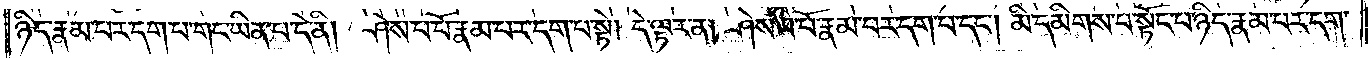ཉིད་རྣམ་པར་དག་པ་གང་ཡིན་པ་དེ་ནི། ཤེས་པ་པོ་རྣམ་པར་དག་པ་སྟེ། དེ་ལྟར་ན། ཤེས་པ་པོ་རྣམ་པར་དག་པ་དང༌། མི་དམིགས་པ་སྟོང་པ་ཉིད་རྣམ་པར་དག་
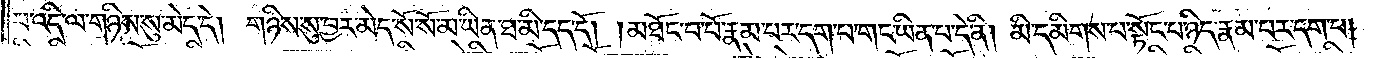པ་འདི་ལ་གཉིས་སུ་མེད་དེ། གཉིས་སུ་བྱར་མེད་སོ་སོ་མ་ཡིན་ཐ་མི་དད་དོ། །མཐོང་བ་པོ་རྣམ་པར་དག་པ་གང་ཡིན་པ་དེ་ནི། མི་དམིགས་པ་སྟོང་པ་ཉིད་རྣམ་པར་དག་པ།
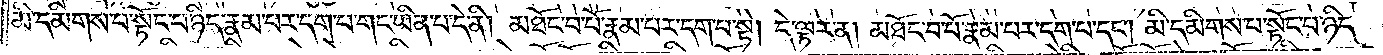མི་དམིགས་པ་སྟོང་པ་ཉིད་རྣམ་པར་དག་པ་གང་ཡིན་པ་དེ་ནི། མཐོང་བ་པོ་རྣམ་པར་དག་པ་སྟེ། དེ་ལྟར་ན། མཐོང་བ་པོ་རྣམ་པར་དག་པ་དང༌། མི་དམིགས་པ་སྟོང་པ་ཉིད་
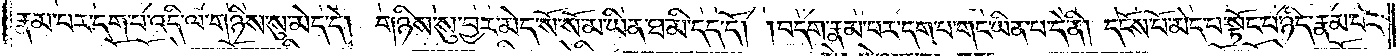རྣམ་པར་དག་པ་འདི་ལ་གཉིས་སུ་མེད་དེ། གཉིས་སུ་བྱར་མེད་སོ་སོ་མ་ཡིན་ཐ་མི་དད་དོ། །བདག་རྣམ་པར་དག་པ་གང་ཡིན་པ་དེ་ནི། དངོས་པོ་མེད་པ་སྟོང་པ་ཉིད་རྣམ་པར་
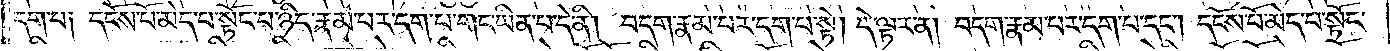དག་པ། དངོས་པོ་མེད་པ་སྟོང་པ་ཉིད་རྣམ་པར་དག་པ་གང་ཡིན་པ་དེ་ནི། བདག་རྣམ་པར་དག་པ་སྟེ། དེ་ལྟར་ན། བདག་རྣམ་པར་དག་པ་དང༌། དངོས་པོ་མེད་པ་སྟོང་
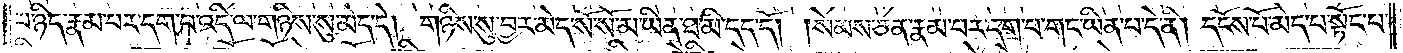པ་ཉིད་རྣམ་པར་དག་པ་འདི་ལ་གཉིས་སུ་མེད་དེ། གཉིས་སུ་བྱར་མེད་སོ་སོ་མ་ཡིན་ཐ་མི་དད་དོ། །སེམས་ཅན་རྣམ་པར་དག་པ་གང་ཡིན་པ་དེ་ནི། དངོས་པོ་མེད་པ་སྟོང་པ་
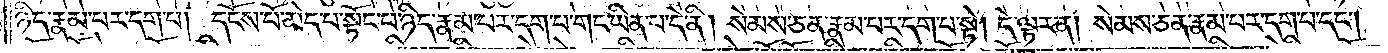ཉིད་རྣམ་པར་དག་པ། དངོས་པོ་མེད་པ་སྟོང་པ་ཉིད་རྣམ་པར་དག་པ་གང་ཡིན་པ་དེ་ནི། སེམས་ཅན་རྣམ་པར་དག་པ་སྟེ། དེ་ལྟར་ན། སེམས་ཅན་རྣམ་པར་དག་པ་དང༌།
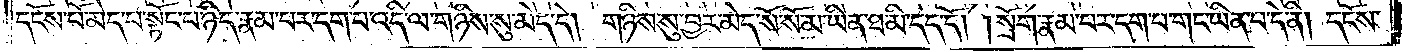དངོས་པོ་མེད་པ་སྟོང་པ་ཉིད་རྣམ་པར་དག་པ་འདི་ལ་གཉིས་སུ་མེད་དེ། གཉིས་སུ་བྱར་མེད་སོ་སོ་མ་ཡིན་ཐ་མི་དད་དོ། །སྲོག་རྣམ་པར་དག་པ་གང་ཡིན་པ་དེ་ནི། དངོས་
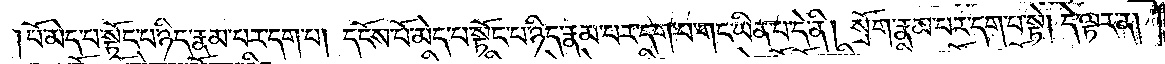པོ་མེད་པ་སྟོང་པ་ཉིད་རྣམ་པར་དག་པ། དངོས་པོ་མེད་པ་སྟོང་པ་ཉིད་རྣམ་པར་དག་པ་གང་ཡིན་པ་དེ་ནི། སྲོག་རྣམ་པར་དག་པ་སྟེ། དེ་ལྟར་ན།
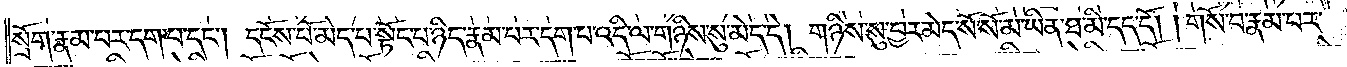སྲོག་རྣམ་པར་དག་པ་དང༌། དངོས་པོ་མེད་པ་སྟོང་པ་ཉིད་རྣམ་པར་དག་པ་འདི་ལ་གཉིས་སུ་མེད་དེ། གཉིས་སུ་བྱར་མེད་སོ་སོ་མ་ཡིན་ཐ་མི་དད་དོ། །གསོ་བ་རྣམ་པར་
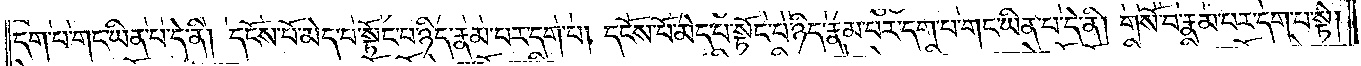དག་པ་གང་ཡིན་པ་དེ་ནི། དངོས་པོ་མེད་པ་སྟོང་པ་ཉིད་རྣམ་པར་དག་པ། དངོས་པོ་མེད་པ་སྟོང་པ་ཉིད་རྣམ་པར་དག་པ་གང་ཡིན་པ་དེ་ནི། གསོ་བ་རྣམ་པར་དག་པ་སྟེ།
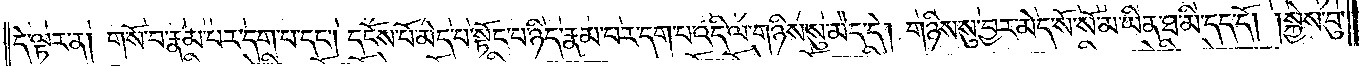དེ་ལྟར་ན། གསོ་བ་རྣམ་པར་དག་པ་དང༌། དངོས་པོ་མེད་པ་སྟོང་པ་ཉིད་རྣམ་པར་དག་པ་འདི་ལ་གཉིས་སུ་མེད་དེ། གཉིས་སུ་བྱར་མེད་སོ་སོ་མ་ཡིན་ཐ་མི་དད་དོ། །སྐྱེས་བུ་
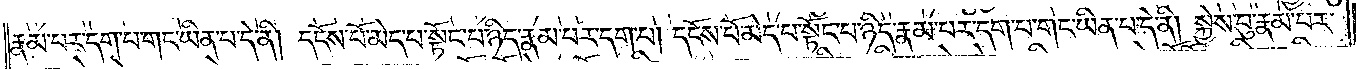རྣམ་པར་དག་པ་གང་ཡིན་པ་དེ་ནི། དངོས་པོ་མེད་པ་སྟོང་པ་ཉིད་རྣམ་པར་དག་པ། དངོས་པོ་མེད་པ་སྟོང་པ་ཉིད་རྣམ་པར་དག་པ་གང་ཡིན་པ་དེ་ནི། སྐྱེས་བུ་རྣམ་པར་
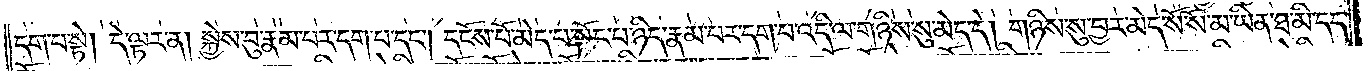དག་པ་སྟེ། དེ་ལྟར་ན། སྐྱེས་བུ་རྣམ་པར་དག་པ་དང༌། དངོས་པོ་མེད་པ་སྟོང་པ་ཉིད་རྣམ་པར་དག་པ་འདི་ལ་གཉིས་སུ་མེད་དེ། གཉིས་སུ་བྱར་མེད་སོ་སོ་མ་ཡིན་ཐ་མི་དད་
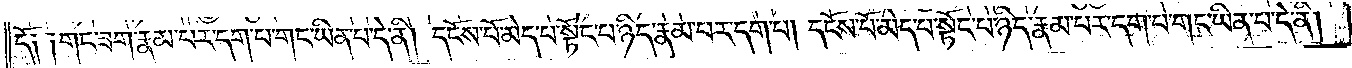དོ། །གང་ཟག་རྣམ་པར་དག་པ་གང་ཡིན་པ་དེ་ནི། དངོས་པོ་མེད་པ་སྟོང་པ་ཉིད་རྣམ་པར་དག་པ། དངོས་པོ་མེད་པ་སྟོང་པ་ཉིད་རྣམ་པར་དག་པ་གང་ཡིན་པ་དེ་ནི།
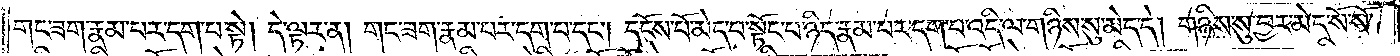གང་ཟག་རྣམ་པར་དག་པ་སྟེ། དེ་ལྟར་ན། གང་ཟག་རྣམ་པར་དག་པ་དང༌། དངོས་པོ་མེད་པ་སྟོང་པ་ཉིད་རྣམ་པར་དག་པ་འདི་ལ་གཉིས་སུ་མེད་དེ། གཉིས་སུ་བྱར་མེད་སོ་སོ་
